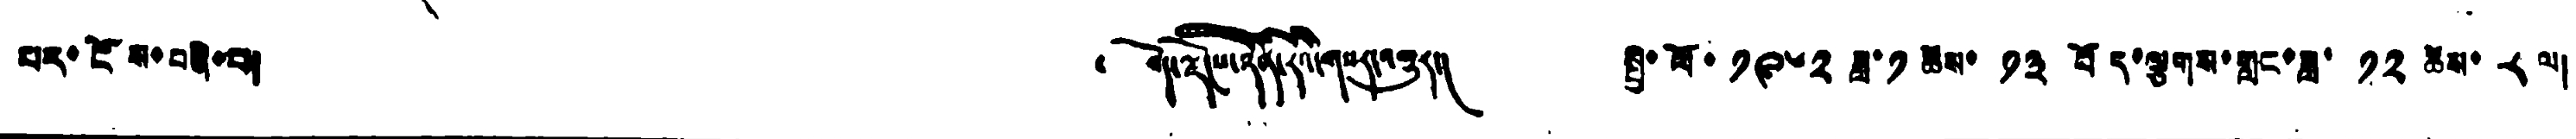པར་ངོས་བཞི་པ། ༄ བོད་ལྗོངས་ཉིན་རེའི་གསར་འགྱུར། སྤྱི་ལོ་ ༡༩༦༢ ཟླ་ ༡ ཚེས་ ༡༣ བོད་ལྕགས་གླང་ཟླ་ ༡༢ ཚེས་ ༨ ལ།
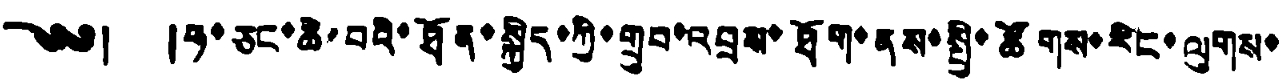༄༅། །ཧ་ཅང་ཆེ་བའི་ཐོན་སྐྱེད་ཀྱི་གྲུབ་འབྲས་ཐོག་ནས་སྤྱི་ཚོགས་རིང་ལུགས་
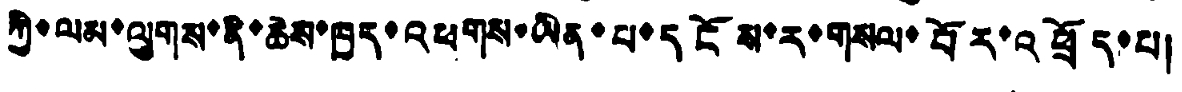ཀྱི་ལམ་ལུགས་ནི་ཆེས་ཁྱད་འཕགས་ཡིན་པ་དངོས་ར་གསལ་པོར་འཕྲོད་པ།
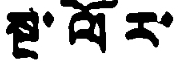སྔ་ལོར་
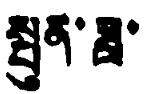སྤུན་ཟླ་
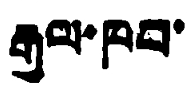རྒྱལ་ཁབ་
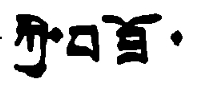ཀྱི་བཟོ་
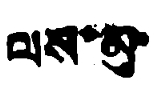ལས་མུ་
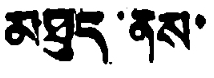མཐུད་ནས་
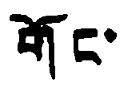གོང་
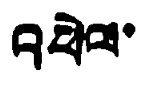འཕེལ་
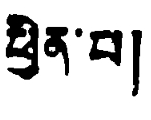ཕྱིན་པ།
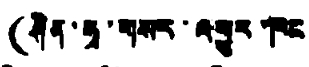(ཤིན་ཧྭ་གསར་འགྱུར་ཁང
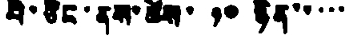པེ་ཅིང་ནས་ཚེས་ ༡༠ ཉིན་་་་་
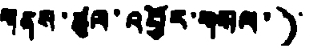གནས་ཚུལ་འབྱོར་གསལ་)
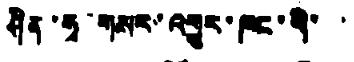ཤིན་ཧྭ་གསར་འགྱུར་ཁང་གི་་
